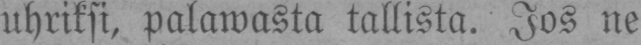uhriksi, palawasta tallista. Jos ne
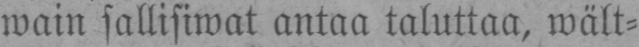wain sallisiwat antaa taluttaa, wält-
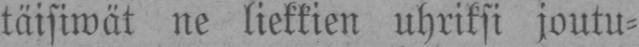täisiwät ne liekkien uhriksi joutu-
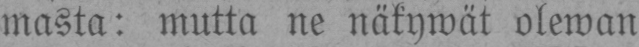masta: mutta ne näkywät olewan
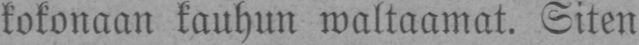kokonaan kauhun waltaamat. Siten
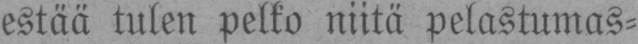estää tulen pelko niitä pelastumas-
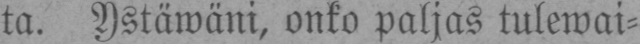ta. Ystäwäni, onko paljas tulewai-
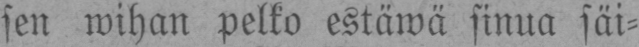sen wihan pelko estäwä sinua säi-
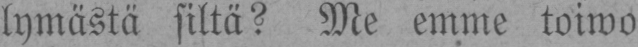lymästä siltä? Me emme toiwo
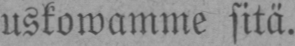uskowamme sitä.
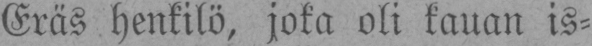Eräs henkilö, joka oli kauan is-
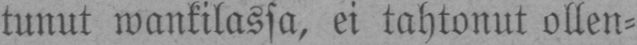tunut wankilassa, ei tahtonut ollen-
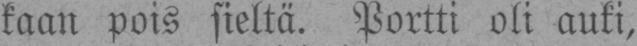kaan pois sieltä. Portti oli auki,
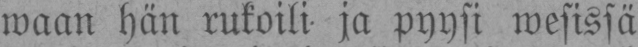waan hän rukoili ja pyysi wesissä
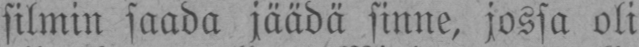silmin saada jäädä sinne, jossa oli
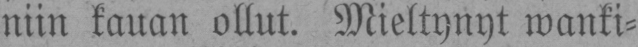niin kauan ollut. Mieltynyt wanki-
